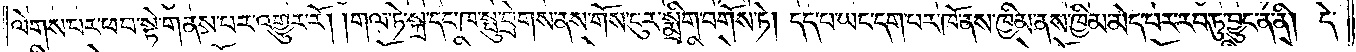ལེགས་པར་ཕབ་སྟེ་གནས་པར་འགྱུར་རོ། །གལ་ཏེ་སྐྲ་དང་ཁ་སྤུ་བྲེགས་ནས་གོས་ངུར་སྨྲིག་བགོས་ཏེ། དད་པ་ཡང་དག་པ་ཁོ་ནས་ཁྱིམ་ནས་ཁྱིམ་མེད་པར་རབ་ཏུ་བྱུང་ན་ནི། དེ་
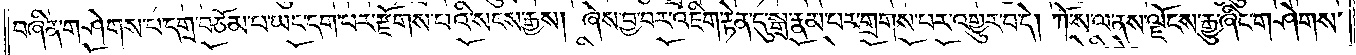བཞིན་གཤེགས་པ་དགྲ་བཅོམ་པ་ཡང་དག་པར་རྫོགས་པའི་སངས་རྒྱས། ཞེས་བྱ་བར་འཇིག་རྟེན་དུ་སྒྲ་རྣམ་པར་གྲགས་པར་འགྱུར་བ་དེ། ཀོ་ས་ལ་ནས་ལྗོངས་རྒྱུ་ཞིང་གཤེགས་
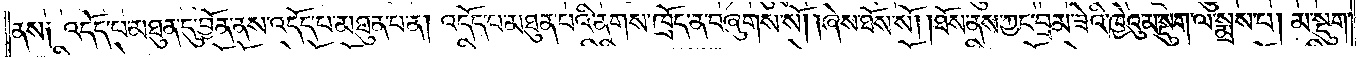ནས༑ འདོད་པ་མཐུན་དུ་བྱོན་ནས་འདོད་པ་མཐུན་པ་ན། འདོད་པ་མཐུན་པའི་ནགས་ཁྲོད་ན་བཞུགས་སོ། །ཞེས་ཐོས་སོ། །ཐོས་ནས་ཀྱང་བྲམ་ཟེའི་ཁྱེའུ་མ་སྡུག་ལ་སྨྲས་པ། མ་སྡུག་
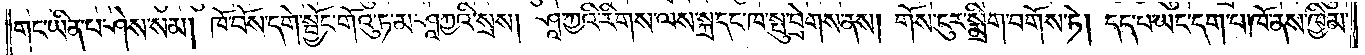གང་ཡིན་པ་ཤེས་སམ། ཁོ་བོས་དགེ་སྦྱོང་གོའུ་ཏ་མ་ཤཱཀྱའི་སྲས། ཤཱཀྱའི་རིགས་ལས་སྐྲ་དང་ཁ་སྤུ་བྲེགས་ནས། གོས་ངུར་སྨྲིག་བགོས་ཏེ། དད་པ་ཡང་དག་པ་ཁོ་ནས་ཁྱིམ་
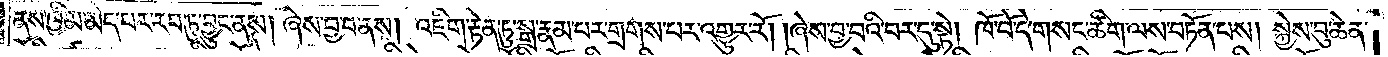ནས་ཁྱིམ་མེད་པར་རབ་ཏུ་བྱུང་ནས། ཞེས་བྱ་བ་ནས། འཇིག་རྟེན་ཏུ་སྒྲ་རྣམ་པར་གྲགས་པར་འགྱུར་རོ། །ཞེས་བྱ་བའི་བར་དུ་སྟེ། ཁོ་བོ་དེ་གསང་ཚིག་ལས་བཏོན་པས། སྐྱེས་བུ་ཆེན་
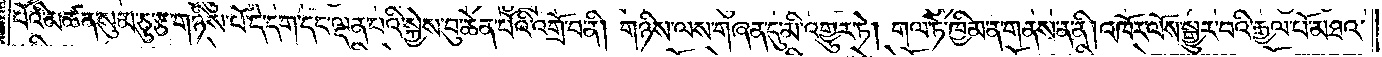པོའི་མཚན་སུམ་ཅུ་རྩ་གཉིས་པོ་དེ་དག་དང་ལྡན་པའི་སྐྱེས་བུ་ཆེན་པོའི་འགྲོ་བ་ནི། གཉིས་ལས་གཞན་དུ་མི་འགྱུར་ཏེ། གལ་ཏེ་ཁྱིམ་ན་གནས་ན་ནི། འཁོར་ལོས་སྒྱུར་བའི་རྒྱལ་པོ་མཐའ་
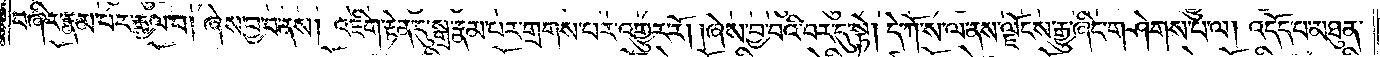བཞིར་རྣམ་པར་རྒྱལ་བ། ཞེས་བྱ་བ་ནས། འཇིག་རྟེན་དུ་སྒྲ་རྣམ་པར་གྲགས་པར་འགྱུར་རོ། །ཞེས་བྱ་བའི་བར་དུ་སྟེ། དེ་ཀོ་ས་ལ་ནས་ལྗོངས་རྒྱུ་ཞིང་གཤེགས་པ་ལ། འདོད་པ་མཐུན་
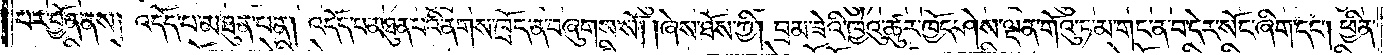པར་བྱོན་ནས། འདོད་པ་མཐུན་པ་ན། འདོད་པ་མཐུན་པའི་ནགས་ཁྲོད་ན་བཞུགས་སོ། །ཞེས་ཐོས་ཀྱི། བྲམ་ཟེའི་ཁྱེའུ་ཚུར་ཁྱོད་ཤེས་ལྡན་གོའུ་ཏ་མ་གང་ན་བ་དེར་སོང་ཞིག་དང༌། ཕྱིན་
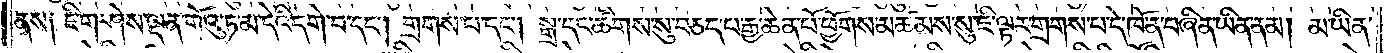ནས༑ ཇི་ག་ཤེས་ལྡན་གོའུ་ཏ་མ་དེའི་དགེ་བ་དང༌། གྲགས་པ་དང༌། སྒྲ་དང་ཚིགས་སུ་བཅད་པ་རྒྱ་ཆེན་པོ་ཕྱོགས་མཚམས་སུ་ཇི་ལྟར་གྲགས་པ་དེ་ཁོ་ན་བཞིན་ཡིན་ནམ། མ་ཡིན་
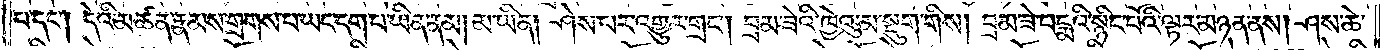པ་དང༌། དེའི་མཚན་རྣམས་གྲགས་པ་ཡང་དག་པ་ཡིན་ནམ། མ་ཡིན། ཤེས་པར་འགྱུར་གྲང༌། བྲམ་ཟེའི་ཁྱེའུ་མ་སྡུག་གིས། བྲམ་ཟེ་པདྨའི་སྙིང་པོའི་ལྟར་མཉན་ནས། ཤས་ཆེ་
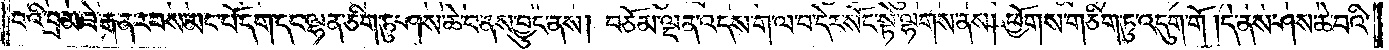བའི་བྲམ་ཟེ་རྒན་རབས་མང་པོ་དག་དང་ལྷན་ཅིག་ཏུ་ཤས་ཆེ་བ་ནས་བྱུང་ནས། བཅོམ་ལྡན་འདས་ག་ལ་བ་དེར་སོང་སྟེ་ལྷགས་ནས། ཕྱོགས་གཅིག་ཏུ་འདུག་གོ །དེ་ནས་ཤས་ཆེ་བའི་
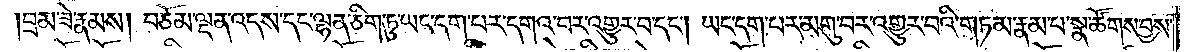བྲམ་ཟེ་རྣམས། བཅོམ་ལྡན་འདས་དང་ལྷན་ཅིག་ཏུ་ཡང་དག་པར་དགའ་བར་འགྱུར་བ་དང༌། ཡང་དག་པར་མགུ་བར་འགྱུར་བའི་གཏམ་རྣམ་པ་སྣ་ཚོགས་བྱས་
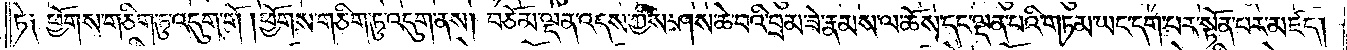ཏེ༑ ཕྱོགས་གཅིག་ཏུ་འདུག་གོ །ཕྱོགས་གཅིག་ཏུ་འདུག་ནས། བཅོམ་ལྡན་འདས་ཀྱིས་ཤས་ཆེ་བའི་བྲམ་ཟེ་རྣམས་ལ་ཆོས་དང་ལྡན་པའི་གཏམ་ཡང་དག་པར་སྟོན་པར་མཛད།
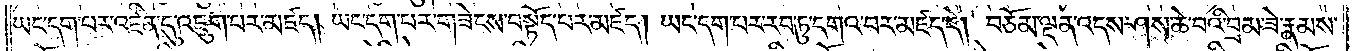ཡང་དག་པར་འཛིན་དུ་འཇུག་པར་མཛད། ཡང་དག་པར་གཟེངས་བསྟོད་པར་མཛད། ཡང་དག་པར་རབ་ཏུ་དགའ་བར་མཛད་དེ། བཅོམ་ལྡན་འདས་ཤས་ཆེ་བའི་བྲམ་ཟེ་རྣམས་
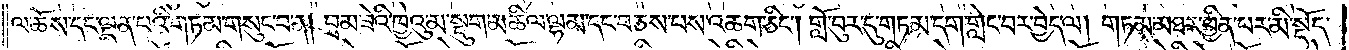ལ་ཆོས་དང་ལྡན་པའི་གཏམ་གསུང་བ་ན། བྲམ་ཟེའི་ཁྱེའུ་མ་སྡུག་མཆིལ་ལྷམ་དང་བཅས་པས་འཆག་ཅིང༌། གློ་བུར་དུ་གཏམ་དག་གླེང་བར་བྱེད་ལ། གཏམ་མཐར་ཕྱིན་པར་མི་སྡོད་
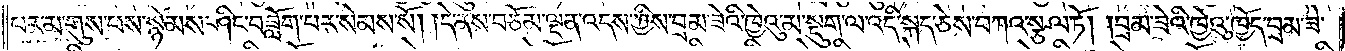པར་མ་གུས་པས་སྙེམས་ཤིང་བཟློག་པར་སེམས་སོ། །དེ་ནས་བཅོམ་ལྡན་འདས་ཀྱིས་བྲམ་ཟེའི་ཁྱེའུ་མ་སྡུག་ལ་འདི་སྐད་ཅེས་བཀའ་སྩལ་ཏོ། །བྲམ་ཟེའི་ཁྱེའུ་ཁྱོད་བྲམ་ཟེ་
